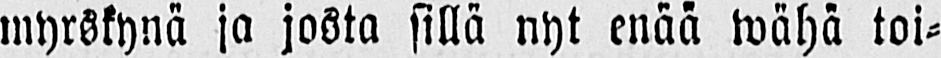myrskynä ja josta sillä nyt enää wähä Loi-
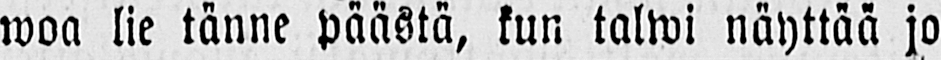waa lie tänne päästä, kun talwi näyttää jo
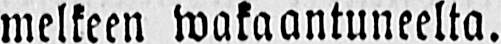melkeen wakaantuneelta.
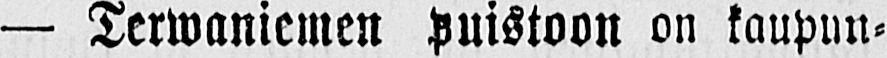— Terwaniemen puistoon on kaupun-
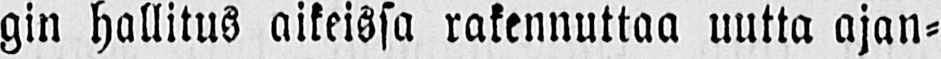gin hallitus aikeissa rakennuttaa uutta ajan-
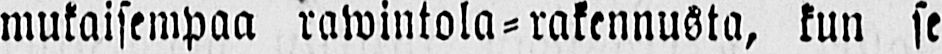mukaisempaa rawintola-rakennusta, kun se
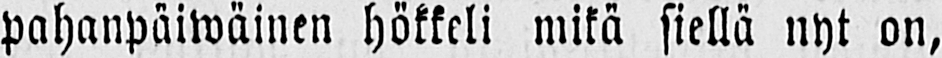pahanpäiwäinen hökkeli mikä siellä nyt on,
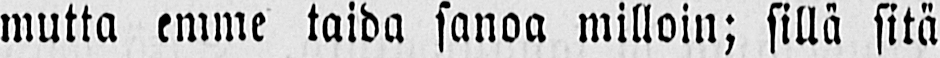mutta emme taida sanoa milloin; sillä sitä
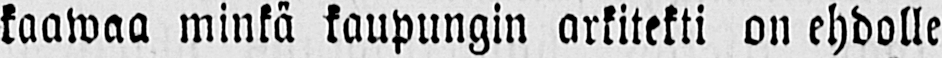kaawaa minkä kaupungin arkitekti on ehdolle
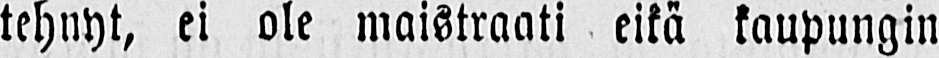tehnyt, ei ole maistraati eikä kaupungin
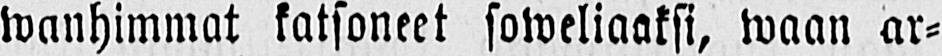wanhimmat katsoneet soweliaaksi, waan ar-
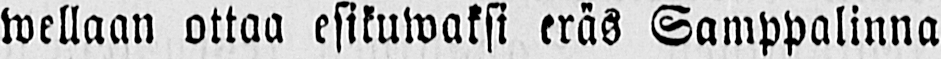wellaan ottaa esikuwaksi eräs Samppalinna
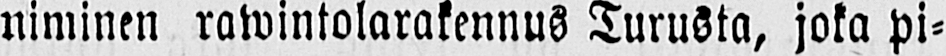niminen rawintolarakennus Turusta, joka pi-
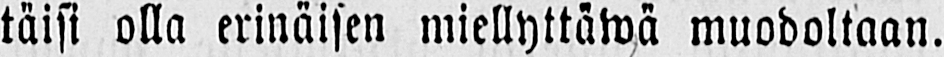täisi olla erinäisen miellyttäwä muodoltaan.
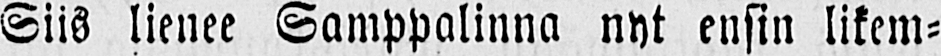Siis lienee Samppalinna nyt ensin likem-
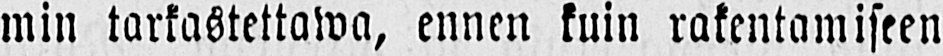min tarkastettawa, ennen kuin rakentamiseen
